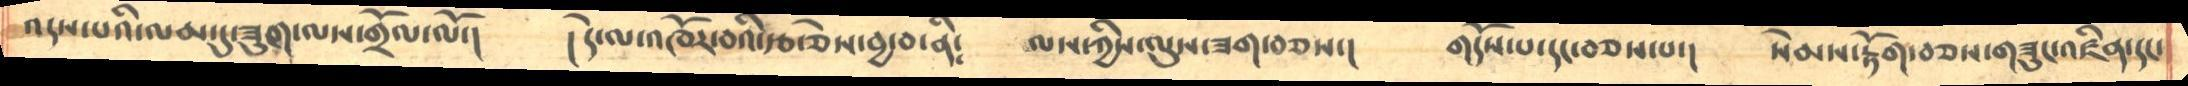འདས་པའི་ལམ་དུ་ཟུག་ལས་གྲོལ་ལོ་།      །དེ་ལ་འཁོར་བའི་རྩ་ཅེས་བྱ་བ་ནི༴      ལས་ཀྱིས་ལུས་ཟག་བཅས་།      གདོས་པ་དང་བཅས་པ་།     སེམས་རྟོག་བཅས་གཟུང་འཛིན་དང་
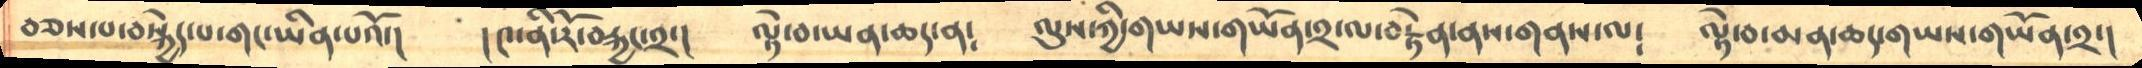བཅས་པ་བསྐྱེད་པ་གང་ཡིན་པའོ་།    །༤་ནི་རོ་བརྐྱང་༢་།    ལྟེ་བ་ཡན་ཆད་ན༴     ལུས་ཀྱི་གཡས་གཡོན་༢་ལ་བརྟེན་ནས་གནས་ལ༴    ལྟེ་བ་མན་ཆད་གཡས་གཡོན་༢་།
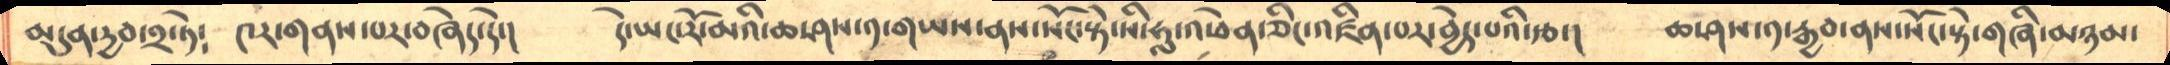མདུན་དྱབ་༢་ཏེ༴    ༤ར་གནས་པར་བཞེད་དེ་།    དེ་ཡང་རོ་མའི་ཆ་ཤས་༡་གཡས་ནས་སོང་སྟེ་སི་ཧླ་འཕེན་ཅིང་འཛིན་པར་བྱེད་པའི་རྩ་།      ཆ་ཤས་༡་རྒྱབ་ནས་སོང་སྟེ་གཞི་མཉམ་
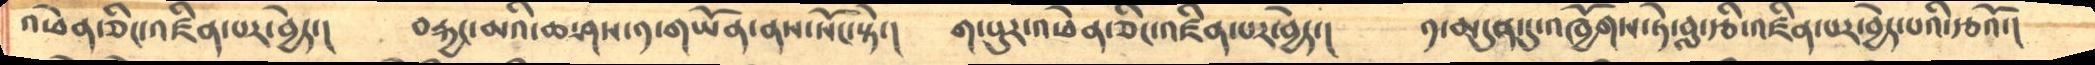འཕེན་ཅིང་འཛིན་པར་བྱེད་།    བརྐྱང་མའི་ཆ་ཤས་༡་གཡོན་ནས་སོང་སྟེ་།   ག་པུར་འཕེན་ཅིང་འཛིན་པར་བྱེད་།    ༡་མདུན་དུ་འཁྱོགས་ཏེ་བླ་རྩི་འཛིན་པར་བྱེད་པའི་རྩའོ་།
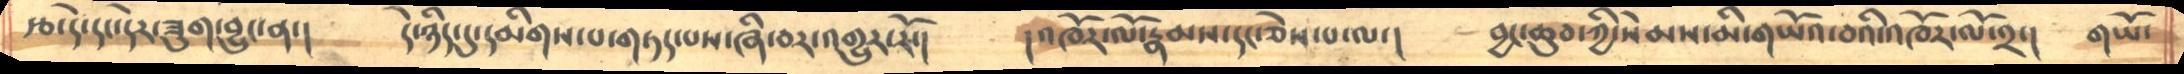རྩ་དེ་དང་དེར་ཟུག་བྱུང་ན་།    དེ་ཉིད་དུ་དམིགས་པ་གཏད་པས་ཞི་བར་འགྱུར་རོ་།    །འཁོར་ལོ་ར་རྣམས་དང་ཅེས་པ་ལ་།    བྱང་ཆུབ་ཀྱི་སེམས་མི་གཡོའ་བའི་འཁོར་ལོ་༢་།    གཡོ་
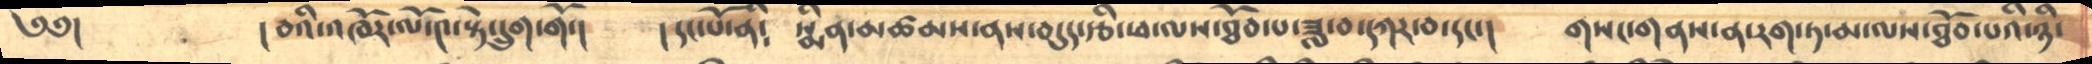༄༅།         །བའི་འཁོར་ལོ་༤་སྟེ་དྲུག་གོ་།   །དང་པོ་ནི༴    སྨིན་མཚམས་ནས་བདུད་རྩི་ཕ་ལས་ཐོབ་པ་ཟླ་བ་དཀར་བདང་།    གསང་གནས་ན་རག་ཏ་མ་ལས་ཐོབ་པའི་ཉི་
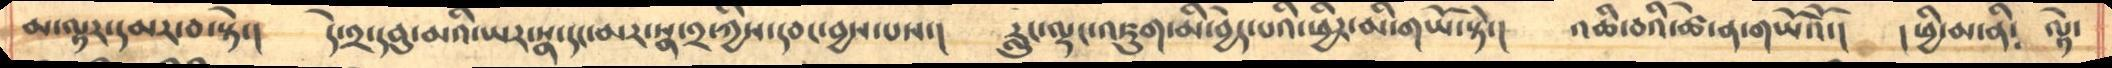མ་ལྟར་དམར་བ་སྟེ་།   དེ་༢་དབུ་མའི་ཡར་སྣ་དང་མར་སྣ་༢་ཀྱིས་དབང་བྱས་པས་།   རླུང་ལྡང་འཇུག་མི་བྱེད་པའི་ཕྱིར་མི་གཡོ་སྟེ་།    འཆི་བའི་ཚེ་ན་གཡོའོ་།    །ཕྱི་མ་ནི༴  ལྟེ་
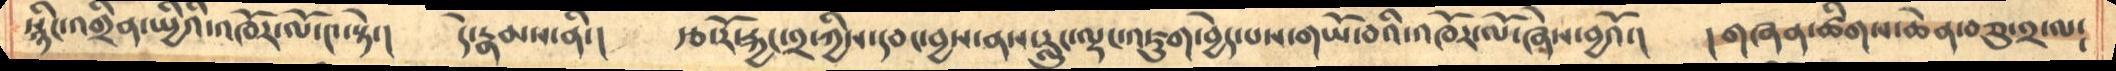སྙིང་འགྲིན་ཡྱིའི་འཁོར་ལོ་༤་སྟེ་།    དེ་རྣམས་ནི་།    རྩ་རོ་རྐྱང་༢་ཀྱིས་དབང་བྱས་ནས་རླུང་ལྡང་འཇུག་བྱེད་པས་གཡོ་བའི་འཁོར་ལོ་ཞེས་བྱའོ་།    །གཞན་ཚིགས་ཆེན་བཅུ་༢་ལ༴
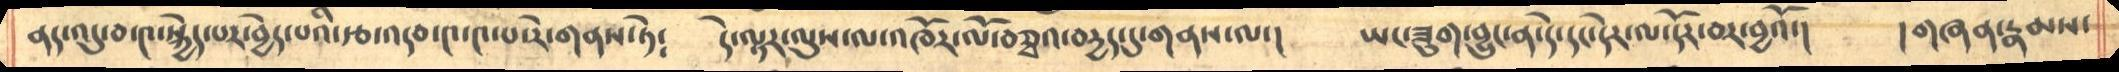ནད་འདུ་བ་༤་སྐྱེད་པར་བྱེད་པའི་རྩ་འདབ་༤་༤་པ་རེ་གནས་ཏེ༴    དེ་ལྟར་ལུས་ལ་འཁོར་ལོ་བཅྭའ་བདྱད་དུ་གནས་ལ་།    ཡང་ཟུག་བྱུང་ན་དེ་དང་དེར་ལ་དོར་བར་བྱའོ་།     །གཞན་རྣམས་
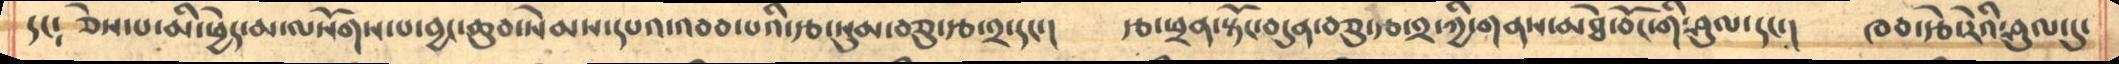དང༴  ཅེས་པ་མི་ཕྱེད་མ་ལསོགས་པ་བྱང་ཆུབ་སེམས་དཔའ་འབབ་པའི་རྩ་སུམ་བཅུ་རྩ་༢་དང་།   རྩ་ཕྲན་སྟོང་བདུན་བཅུ་རྩ་༢་ཀྱི་གནས་མཐེ་བོང་གི་ཤུལ་དང་།     ཁབ་རྩེ་རེའི་ཤུལ་དུ་
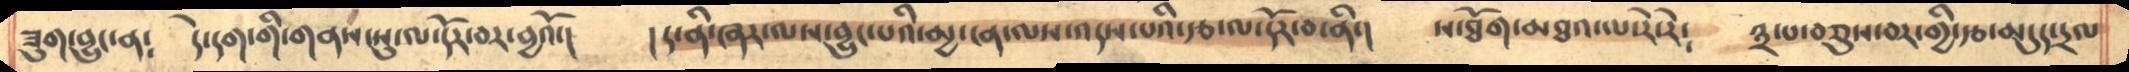ཟུག་བྱུང་ན༴     དེ་དག་གི་གནས་སུ་ལ་དོར་བར་བྱའོ་།    །ད་ནི་ཞར་ལས་བྱུང་པའི་མྱ་ངན་ལས་འདས་པའི་རྩ་ལ་དོར་བ་ནི་།   ས་ཐོག་མཐའ་ལ་རེ་རེ༴    ༣་པ་བཅུས་བར་གྱི་རྩ་མདུད་དྲལ
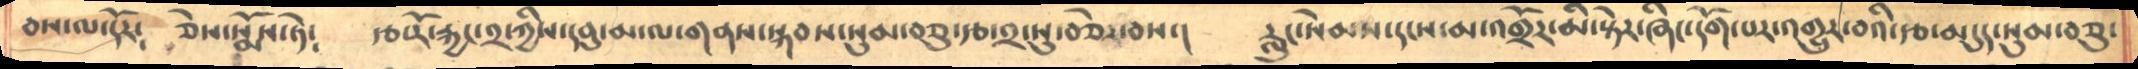བས་ལ་དོར༴    ཅེས་སྨོས་ཏེ༴    རྩ་རོ་རྐྱང་༢་ཀྱིས་དབུ་མ་ལ་གནས་སྐབས་སུམ་བཅུ་རྩ་༢་སུ་བཅེར་བས་།    རླུང་སེམས་དངས་མ་འགྲོར་མི་སྟེར་ཞིང་དོག་པར་འགྱུར་བའི་རྩ་མདུད་སུམ་བཅུ་
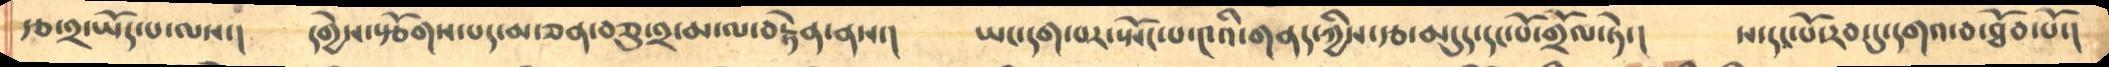རྩ་༢་ཡོད་པ་ལས་།     དགྱེས་སྩོགས་པད་མ་ཅན་བཅུ་༢་མ་ལ་བརྟེན་ནས་།     ཡང་དག་པར་སྤོང་པ་༤འི་གནད་ཀྱིས་རྩ་མདུད་དང་པོ་གྲོལ་ཏེ་།     ས་དང་པོ་རབ་དུ་དགའ་བ་ཐོབ་པོ་།
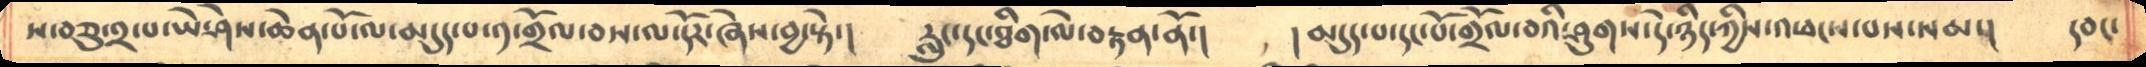ས་བཅུ་༢་པ་ཡེ་ཤེས་ཆེན་པོ་ལ་མདུད་པ༡་གྲོལ་བས་ལ་དོར་ཞེས་བྱ་སྟེ་།    རླུང་དང་ཐིག་ལེ་བརྟན་ནོ་།    ། མདུད་པ་དང་པོ་གྲོལ་བའི་ཤུགས་དེ་ཉིད་ཀྱིས་འཕངས་པས་སམ་།    དབང་
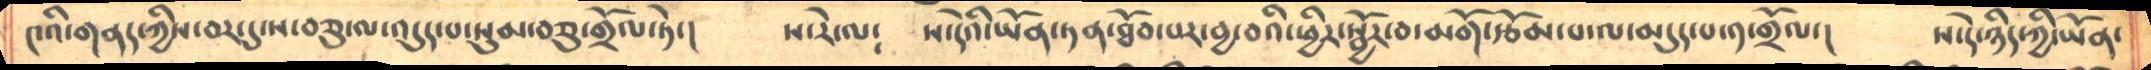༤འི་གནད་ཀྱིས་བར་དུ་ས་བཅུ་འདུད་པ་སུམ་བཅུ་གྲོལ་ཏེ་།    ས་རེ་ལ༴   ས་དེའི་ཡོན་ཏན་ཐོབ་པར་བྱ་བའི་ཕྱིར་སྦྱོར་བ་མགོ་རྩོམ་པ་ལ་མདུད་པ་༡་གྲོལ་།     ས་དེ་ཉིད་ཀྱི་ཡོན་
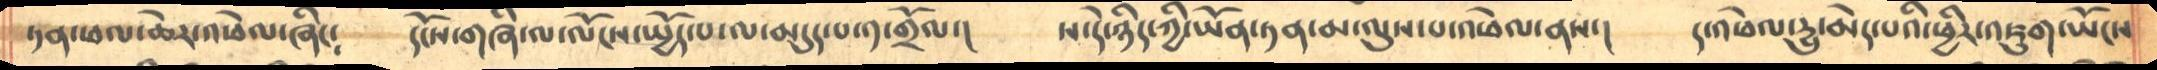ཏན་ཕལ་ཆེར་འཕེལ་ཞིང༴   དངོས་གཞི་ལ་ལོངས་སྤྱོད་པ་ལ་མདུད་པ་༡་གྲོལ་།    ས་དེ་ཉིད་ཀྱི་ཡོན་ཏན་མ་ལུས་པ་འཕེལ་ནས་།   ད་འཕེལ་དྱུ་མེད་པའི་ཕྱིར་འཇུག་ཡོངས་
